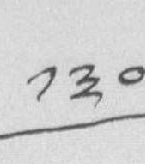༡༣༠
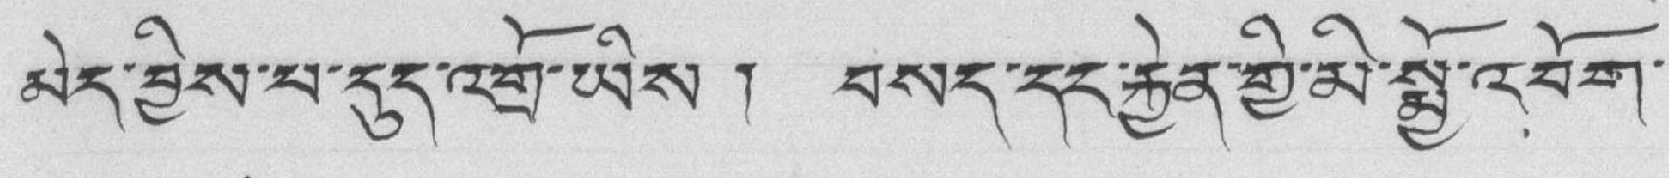མེད་བྱིས་པ་དུད་འགྲོ་ཡིས ། བསད་དང་རྐྱེན་གྱི་མིསྨྱོ་འབོག་
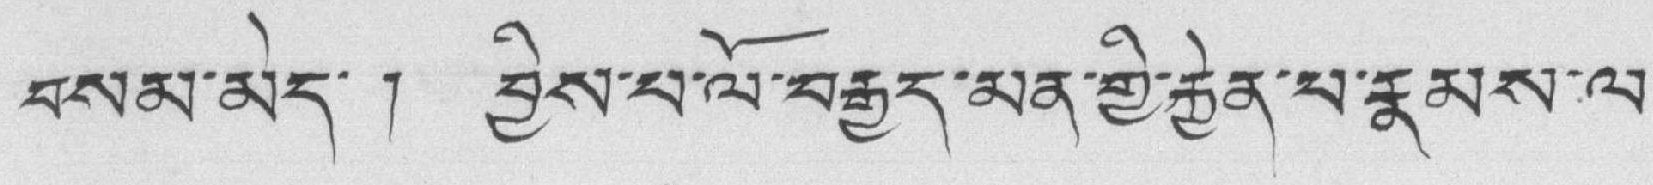བསམ་མེད་ ། བྱིས་པ་ལོ་བརྒྱད་མན་གྱི་རྐྱེན་པ་རྣམས་ལ་
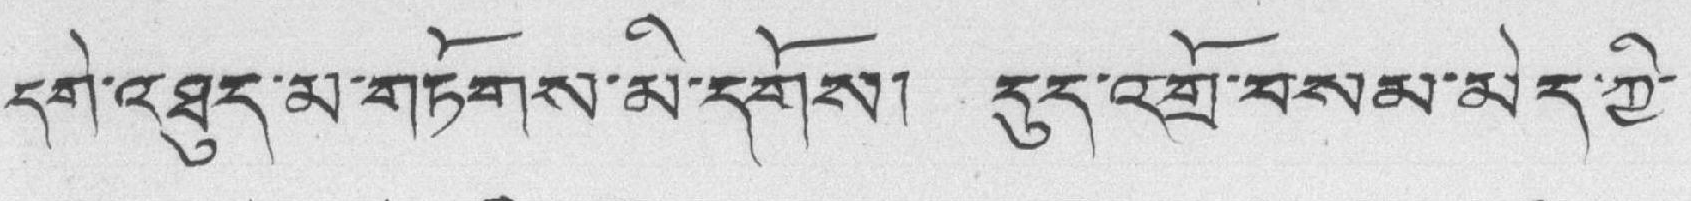དགེ་འཐུད་མ་གཏོགས་མི་དགོས། དུད་འགྲོ་བསམ་མེད་ཀྱི་
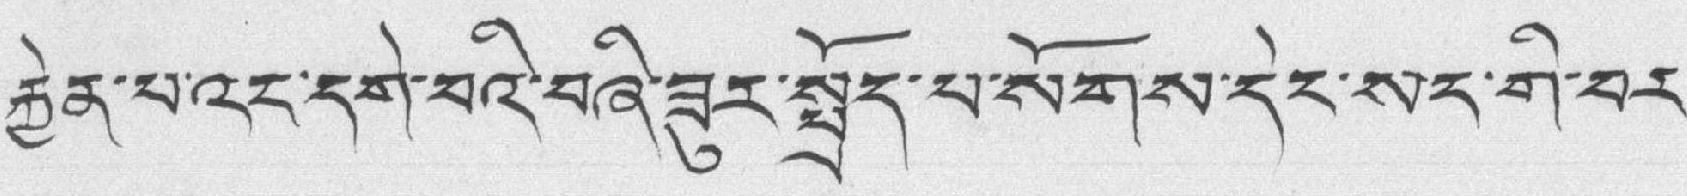རྐྱེན་པ་འང་དགེ་བའི་བཞི་ཟུར་སྤྲོད་པ་སོགས་དེང་སང་གི་བར་
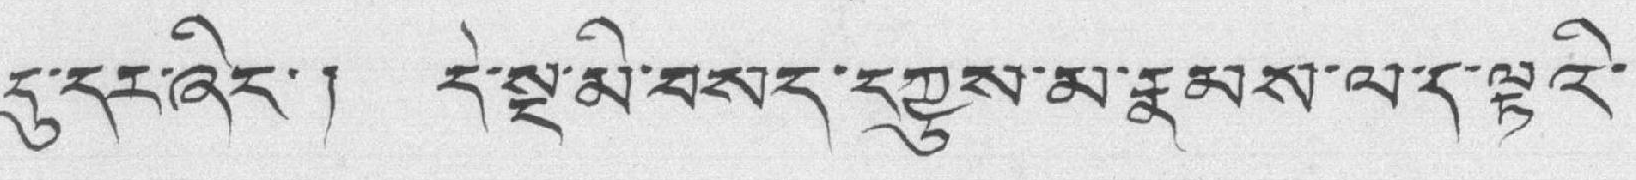དུ་དར་ཞིང་། དེ་སྔ་མི་བསད་དཀྱུས་མ་རྣམས་ལ་ད་ལྟའི་
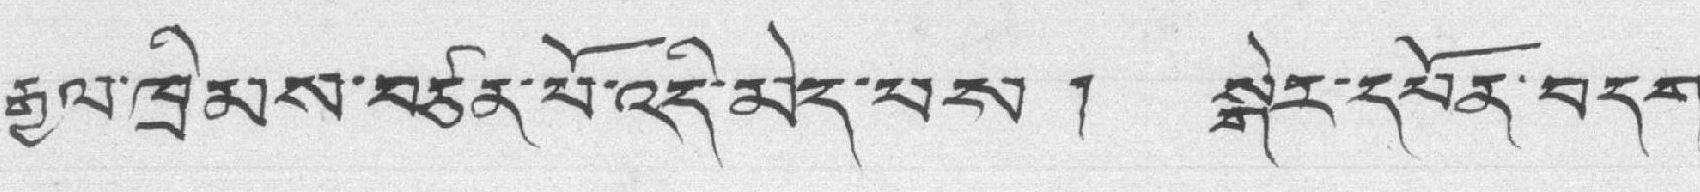རྒྱལ་ཁྲིམས་བཙན་པོ་འདི་མེད་པས ། སྒེར་དཔོན་བདག་
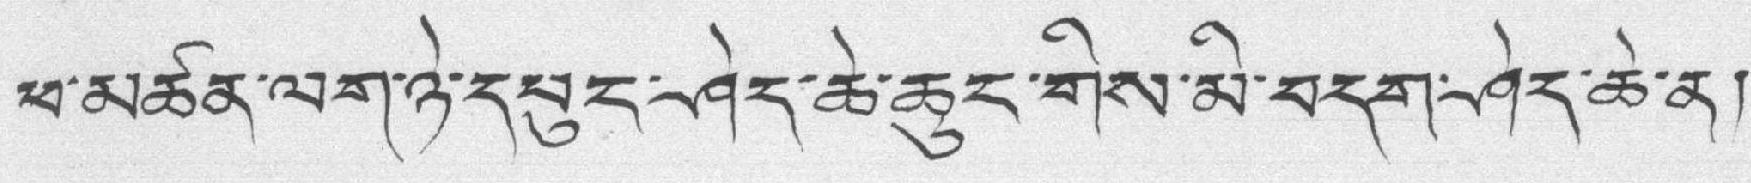ཕ་མཚན་ལག་ཉེ་དཔུང་ཤེད་ཆེ་ཆུང་གིས་མི་བདག་ཤེད་ཆེ་ན།
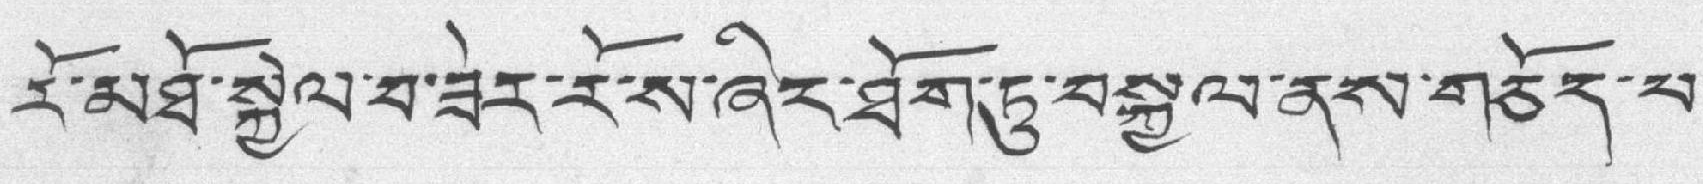རོ་མཐོ་སྐྱེལ་བ་ཟེར་རོ་ས་ཞིང་ཐོག་ཏུ་བསྐྱལ་ནས་གཅོད་པ་
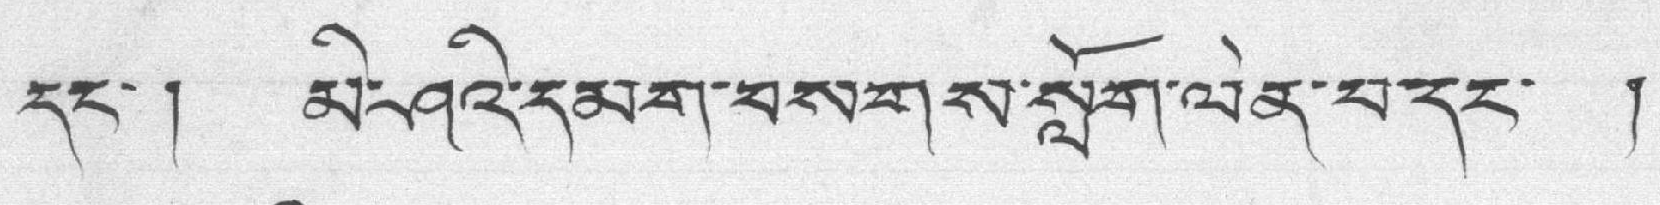དང་། མི་ཤའི་དམག་བསགས་སློག་ལེན་པ་དང་ །
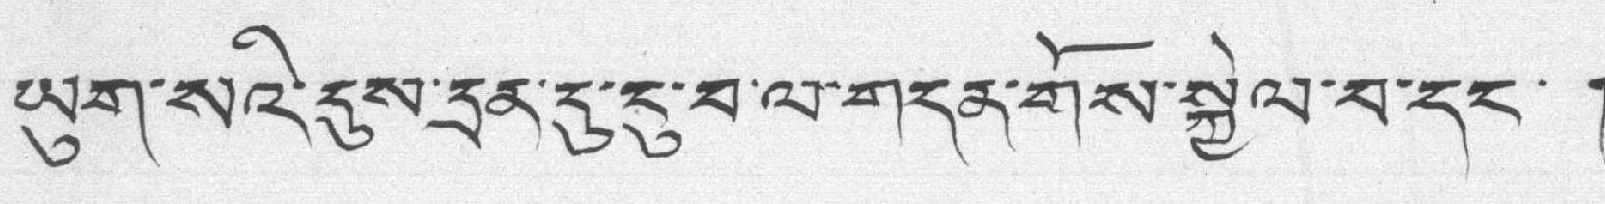ཡུག་སའི་དུས་དྲན་དུ་ངུ་བ་ལ་གདན་གོས་སྐྱེལ་བ་དང་ །
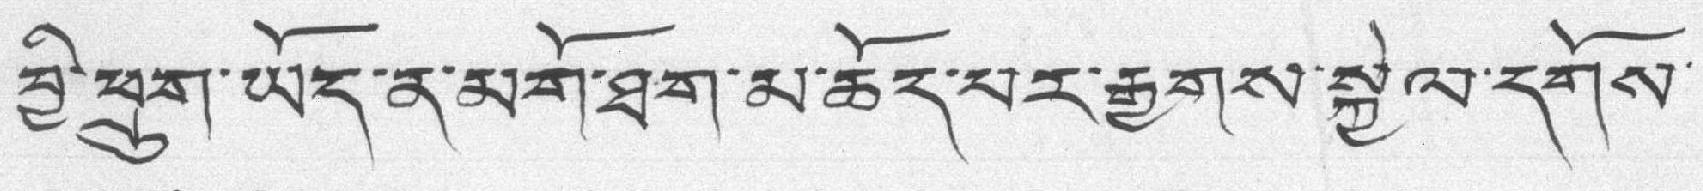བྱི་ཕྲུག་ཡོད་ན་མགོ་ཐག་མ་ཆོད་པར་རྒྱགས་སྐྱེལ་དགོས་
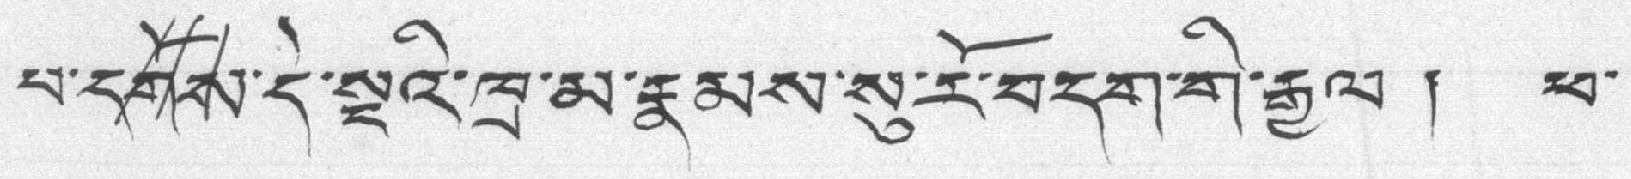པ་དགོས་དེ་སྔའི་ཁྲ་མ་རྣམས་སུ་རོ་བདག་གི་རྒྱལ ། ཕ་
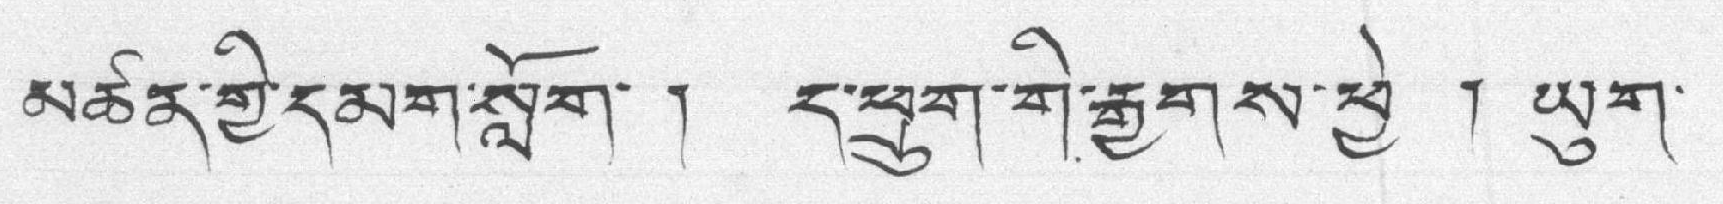མཚན་གྱི་དམག་སློག་ ། ད་ཕྲུག་གི་རྒྱགས་ཕྱེ ། ཡུག་
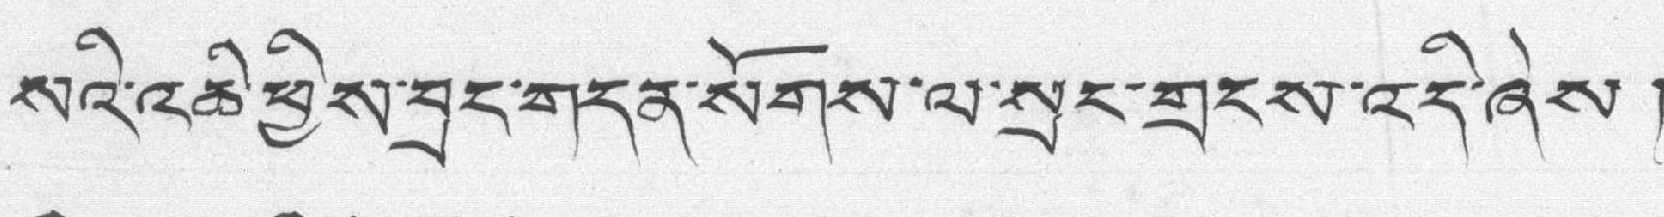སའི་འཆི་ཕྱིས་བྲང་གདན་སོགས་ལ་སྲང་གྲངས་འདི་ཞེས །
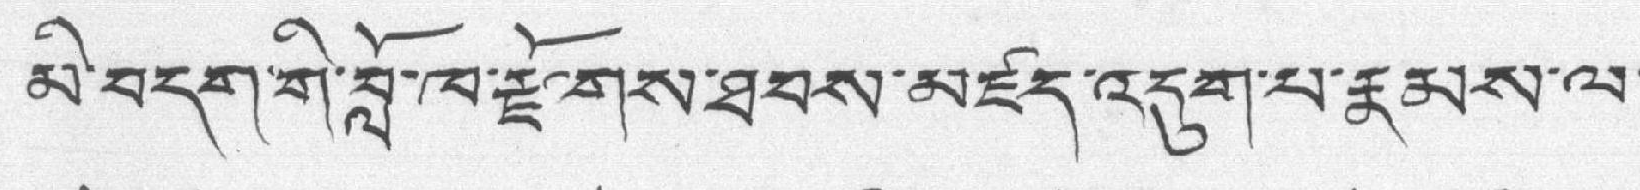མི་བདག་གི་བློ་ཁ་རྫོགས་ཐབས་མཛད་འདུག་པ་རྣམས་ལ་
